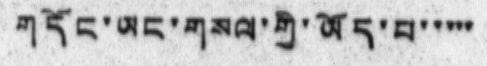གདོང་ཡང་གསལ་གྱི་ཡོད་པ་་་་་
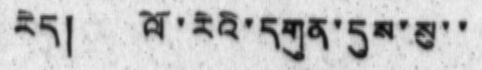རེད། ལོ་རེའི་དགུན་དུས་སུ་་
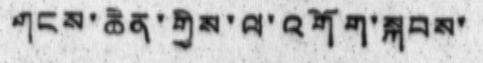གངས་ཆེན་གྱིས་ལ་འགོག་སྐབས་
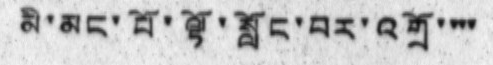མི་མང་པོ་ལྟོ་སློང་བར་འགྲོ་་་་
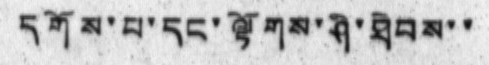དགོས་པ་དང་ལྟོགས་ཤི་ཐེབས་་
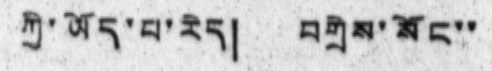ཀྱི་ཡོད་པ་རེད། བགྲེས་སོང་་
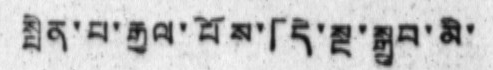སྤེན་བ་རྒྱལ་པོས་「དེ་སྔ་སྒྲུབ་མི་
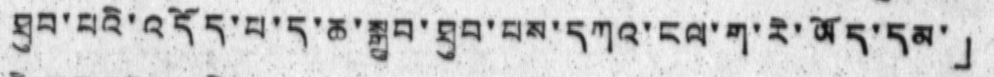ཐུབ་པའི་འདོད་པ་ད་ཆ་སྒྲུབ་ཐུབ་པས་དཀའ་ངལ་ག་རེ་ཡོད་དམ་」
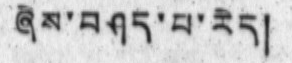ཞེས་བཤད་པ་རེད།
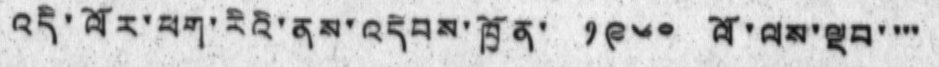འདི་ལོར་ཕག་རིའི་ནས་འདེབས་ཁྱོན་ ༡༩༦༠ ལོ་ལས་ལྡབ་་་་
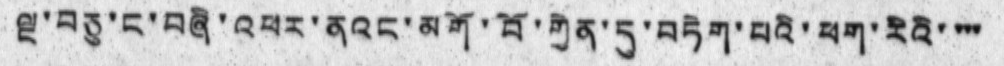ལྔ་བཅུ་ང་བཞི་འཕར་ནའང་མགོ་བོ་གྱེན་དུ་བཏེག་པའི་ཕག་རིའི་་་་
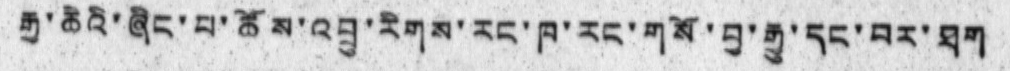རྒྱ་ཆེའི་ཞིང་པ་ཚོས་འབྲུ་རིགས་རང་ཁ་རང་གསོ་བྱ་རྒྱུ་དང་བར་ཐག
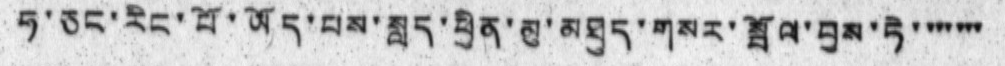ཧ་ཅང་རིང་པོ་ཡོད་པས་སླད་ཕྱིན་མུ་མཐུད་གསར་སྦོལ་བྱས་ཏེ་་་་་་་
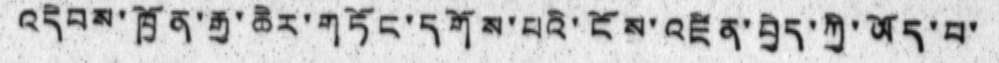འདེབས་ཁྱོན་རྒྱ་ཆེར་གཏོང་དགོས་པའི་ངོས་འཛིན་བྱེད་ཀྱི་ཡོད་པ་
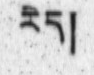རེད།
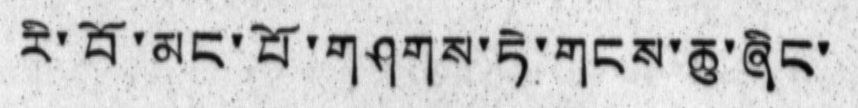རི་བོ་མང་པོ་གཤགས་ཏེ་གངས་ཆུ་ཞིང་
